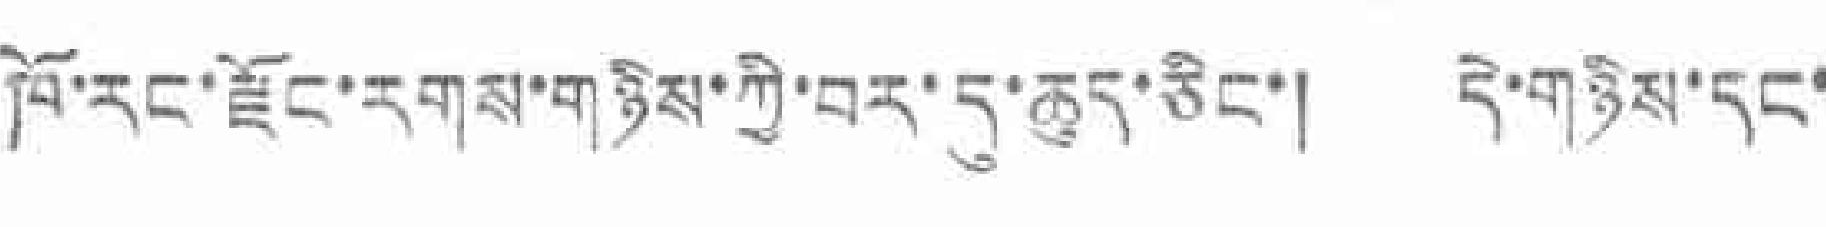ཁོ་རང་རྫོང་རགས་གཉིས་ཀྱི་བར་དུ་ཆུད་ཅིང་། དེ་གཉིས་དང་
